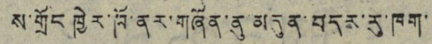ས་གྲོང ཁྱེར་ཁོ་ནར་གཞོན་ནུ་མདུན་བདར་རུ་ཁག་
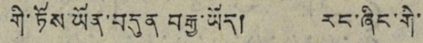གི་ཏོས་ཡོན་བདུན བརྒྱ་ཡོད། རང་ཞིང་གི་
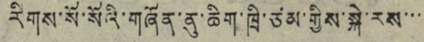རིགས་སོ་སོའི་གཞོན་ནུ་ཆིག་ཁྲི་ཙམ་གྱིས་སྐེ་རུས་་་
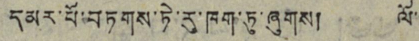དམར་པོ་བཏགས་ཏེ་རུ་ཁག་ཏུ་ཞུགས། ལོ་
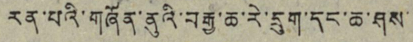རན་པའི་གཞོན་ནུའི་བརྒྱ་ཆ་རེ་དྲུག་དང་ཆ་ཤས་་
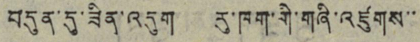བདུན་དུ་ཟིན་འདུག རུ་ཁག་གི་གཞི་འཛུགས་་
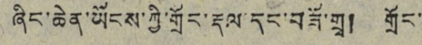ཞིང་ཆེན་ཡོངས་ཀྱི་གྲོང་རྡལ་དང་བཟོ་གྲྭ། གྲོང་
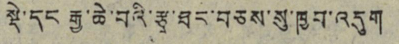སྡེ་དང རྒྱ་ཆེ་བའི་རྩྭ་ཐང་བཅས་སུ་ཁྱབ་འདུག
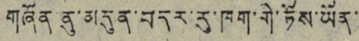གཞོན་ནུ་མདུན་བདར་རུ་ཁག་གི་ཏོས་ཡོན་
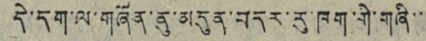དེ་དག་ལ་གཞོན་ནུ་མདུན་བདར་རུ་ཁག་གི་གཞི་་
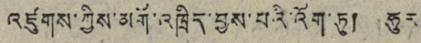འཛུགས་ཀྱིས་མགོ་འཁྲིད་བྱས་པའི་འོག་ཏུ། ཧུར
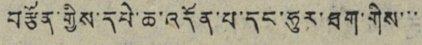བརྩོན་གྱིས་དཔེ་ཆ་འདོན་པ་དང་ཧུར་ཐག་གིས་་་
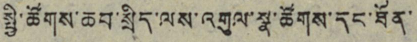སྤྱི་ཚོགས་ཆབ་སྲིད་ལས་འགུལ་སྣ་ཚོགས་དང་ཐོན་
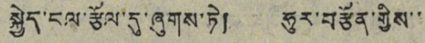སྐྱེད་ངལ་རྩོལ་དུ་ཞུགས་ཏེ། ཧུར་བརྩོན་གྱིས་་
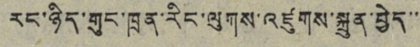རང་ཉིད་གུང་ཁྲན་རིང་ལུགས་འཛུགས་སྐྲུན་བྱེད་་
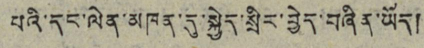པའི་དང་ལེན་མཁན་དུ་སྐྱེད་སྲིད་བྱེད་བཞིན་ཡོད།
